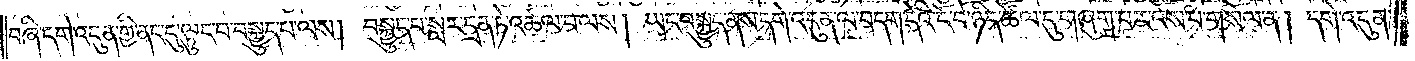བཞི་དགེ་འདུན་གྱི་ནང་དུ་ལྟུང་བར་བསྐྱུད་པ་ལས། བསྐྱུད་པ་སླར་དྲན་ཏེ་འཚལ་བ་ལས། ཡང་བསྐྱུད་ནས་དགེ་འདུན་ལ་བདག་དེའི་ངོ་བོ་ཉིད་ཚོལ་དུ་གཞུག་པར་འོས་པ་གསོལ་ན། དགེ་འདུན་
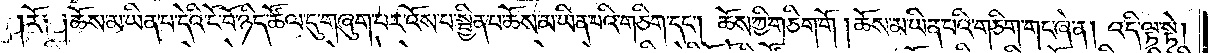།རོ། །ཆོས་མ་ཡིན་པ་དེའི་ངོ་བོ་ཉིད་ཚོལ་དུ་གཞུག་པར་འོས་པ་སྦྱིན་པ་ཆོས་མ་ཡིན་པའི་གཅིག་དང༌། ཆོས་ཀྱི་གཅིག་གོ །ཆོས་མ་ཡིན་པའི་གཅིག་གང་ཞེ་ན། འདི་ལྟ་སྟེ།
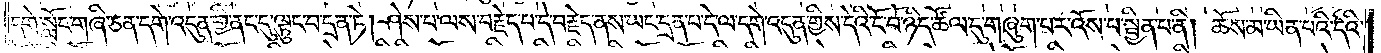དགེ་སློང་གཞི་ཅན་དགེ་འདུན་གྱི་ནང་དུ་ལྟུང་བ་དྲན་ཏེ། ཤེས་པ་ལས་བརྗེད་པ་དེ་བརྗེད་ནས་ཡང་དྲན་པ་དེ་ལ་དགེ་འདུན་གྱིས་དེའི་ངོ་བོ་ཉིད་ཚོལ་དུ་གཞུག་པར་འོས་པ་སྦྱིན་པ་ནི། ཆོས་མ་ཡིན་པའི་དེའི་
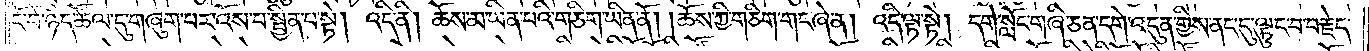ངོ་བོ་ཉིད་ཚོལ་དུ་གཞུག་པར་འོས་པ་སྦྱིན་པ་སྟེ། འདི་ནི། ཆོས་མ་ཡིན་པའི་གཅིག་ཡིན་ནོ། །ཆོས་ཀྱི་གཅིག་གང་ཞེ་ན། འདི་ལྟ་སྟེ། དགེ་སློང་གཞི་ཅན་དགེ་འདུན་གྱིས་ནང་དུ་ལྟུང་བ་བརྗེད་
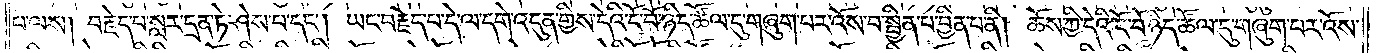པ་ལས། བརྗེད་པ་སླར་དྲན་ཏེ་ཤེས་པ་དང༌། ཡང་བརྗེད་པ་དེ་ལ་དགེ་འདུན་གྱིས་དེའི་ངོ་བོ་ཉིད་ཚོལ་དུ་གཞུག་པར་འོས་པ་སྦྱིན་པ་བྱིན་པ་ནི། ཆོས་ཀྱི་དེའི་ངོ་བོ་ཉིད་ཚོལ་དུ་གཞུག་པར་འོས་
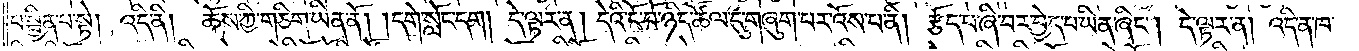པ་སྦྱིན་པ་སྟེ། འདི་ནི། ཆོས་ཀྱི་གཅིག་ཡིན་ནོ། །དགེ་སློང་དག། དེ་ལྟར་ན། དེའི་ངོ་བོ་ཉིད་ཚོལ་དུ་གཞུག་པར་འོས་པ་ནི། རྩོད་པ་ཞི་བར་བྱེད་པ་ཡིན་ཞིང༌། དེ་ལྟར་ན། འདི་ན་ཁ་
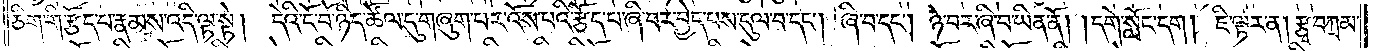ཅིག་གི་རྩོད་པ་རྣམས་འདི་ལྟ་སྟེ། དེའི་ངོ་བོ་ཉིད་ཚོལ་དུ་གཞུག་པར་འོས་པའི་རྩོད་པ་ཞི་བར་བྱེད་པས་དུལ་བ་དང༌། ཞི་བ་དང༌། ཉེ་བར་ཞི་བ་ཡིན་ནོ། །དགེ་སློང་དག། ཇི་ལྟར་ན། རྩྭ་བཀྲམ་
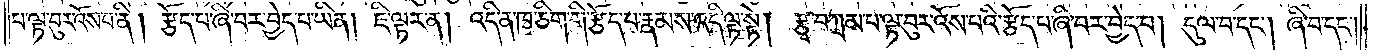པ་ལྟ་བུར་འོས་པ་ནི། རྩོད་པ་ཞི་བར་བྱེད་པ་ཡིན། ཇི་ལྟར་ན། འདི་ན་ཁ་ཅིག་གི་རྩོད་པ་རྣམས་འདི་ལྟ་སྟེ། རྩྭ་བཀྲམ་པ་ལྟ་བུར་འོས་པའི་རྩོད་པ་ཞི་བར་བྱེད་པ། དུལ་བ་དང༌། ཞི་བ་དང༌།
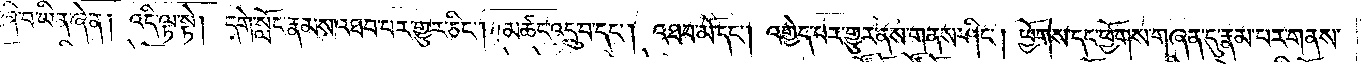ཉེ་བར་ཞི་བ་ཡིན་ཞེ་ན། འདི་ལྟ་སྟེ། དགེ་སློང་རྣམས་འཐབ་པར་གྱུར་ཅིང༌། མཚང་འདྲུ་བ་དང༌། འཐབ་མོ་དང༌། འགྱེད་པར་གྱུར་ནས་གནས་ཤིང༌། ཕྱོགས་དང་ཕྱོགས་གཞན་དུ་རྣམ་པར་གནས་
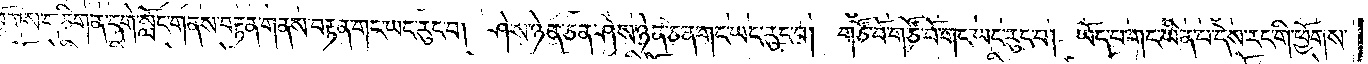ན། ཕྱོགས་གཅིག་ན་དགེ་སློང་གནས་བརྟན་གནས་བརྟན་གང་ཡང་རུང་བ། ཤེས་ཉེན་ཅན་ཤེས་ཉེན་ཅན་གང་ཡང་རུང་བ། གཙོ་བོ་གཙོ་བོ་གང་ཡང་རུང་བ། ཡོད་པ་གང་ཡིན་པ་དེས་རང་གི་ཕྱོགས་
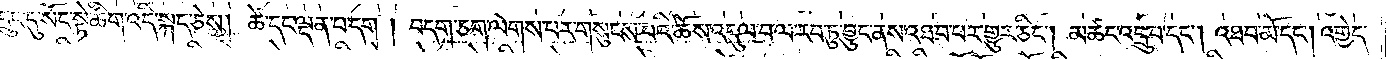ཀྱི་དྲུང་དུ་སོང་སྟེ་ཚིག་འདི་སྐད་ཅེས། ཚེ་དང་ལྡན་པ་དག །བདག་ཅག་ལེགས་པར་གསུངས་པའི་ཆོས་འདུལ་བ་ལ་རབ་ཏུ་བྱུང་ནས་འཐབ་པར་གྱུར་ཅིང༌། མཚང་འདྲུ་བ་དང༌། འཐབ་མོ་དང༌། འགྱེད་
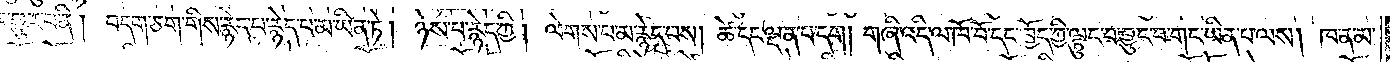པར་གྱུར་པ་ནི། བདག་ཅག་གིས་རྙེད་པ་རྙེད་པ་མ་ཡིན་ཏེ། ཉེས་པ་རྙེད་ཀྱི། ལེགས་པ་མ་རྙེད་པས། ཚེ་དང་ལྡན་པ་དག། གཞི་འདི་ལ་ཁོ་བོ་དང་ཁྱོད་ཀྱི་ལྟུང་བ་བྱུང་བ་གང་ཡིན་པ་ལས། ཁ་ན་མ་
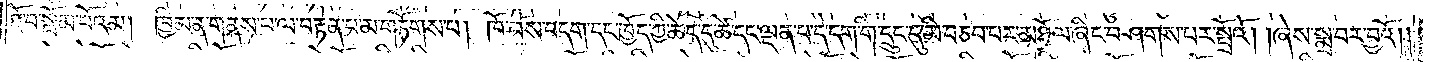ཐོ་བ་སྦོམ་པོའམ། ཁྱིམ་ན་གནས་པ་ལ་བརྟེན་པ་མ་གཏོགས་པ། ཁོ་བོས་བདག་དང་ཁྱོད་ཀྱི་ཆེད་དུ་ཚེ་དང་ལྡན་པ་དེ་དག་གི་དྲུང་དུ་མི་བཅབ་པར་མཐོལ་ཞིང་བཤགས་པར་སྤྲོའོ། །ཞེས་སྨྲ་བར་བྱའོ། །
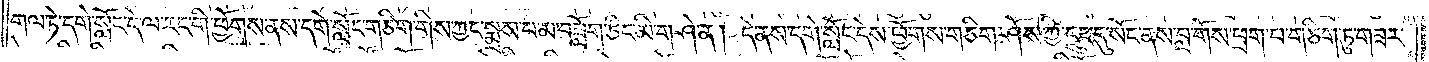གལ་ཏེ་དགེ་སློང་དེ་ལ་རང་གི་ཕྱོགས་ནས་དགེ་སློང་གཅིག་གིས་ཀྱང་སྨྲས་པ་མ་བཟློག་ཅིང་མི་གཤེ་ན། དེ་ནས་དགེ་སློང་དེས་ཕྱོགས་གཅིག་ཤོས་ཀྱི་དྲུང་དུ་སོང་ནས་བླ་གོས་ཕྲག་པ་གཅིག་ཏུ་གཟར་
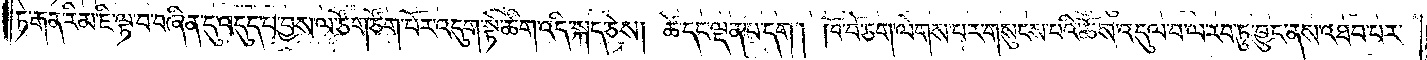ཏེ་རྒན་རིམ་ཇི་ལྟ་བ་བཞིན་དུ་འདུད་པ་བྱས་ལ་ཙོག་ཙོག་པོར་འདུག་སྟེ་ཚིག་འདི་སྐད་ཅེས། ཚེ་དང་ལྡན་པ་དག། ཁོ་བོ་ཅག་ལེགས་པར་གསུངས་བའི་ཆོས་འདུལ་བ་ལ་རབ་ཏུ་བྱུང་ནས་འཐབ་པར་
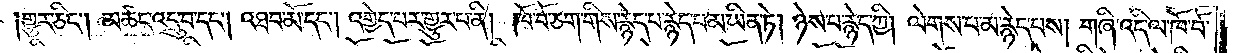གྱུར་ཅིང༌། མཚང་འདྲུ་བ་དང༌། འཐབ་མོ་དང༌། འགྱེད་པར་གྱུར་པ་ནི། ཁོ་བོ་ཅག་གིས་རྙེད་པ་རྙེད་པ་མ་ཡིན་ཏེ། ཉེས་པ་རྙེད་ཀྱི། ལེགས་པ་མ་རྙེད་པས། གཞི་འདི་ལ་ཁོ་བོ་
